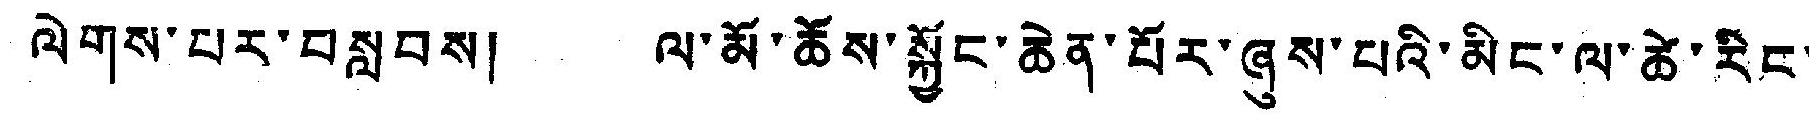ལེགས་པར་བསླབས། ལ་མོ་ཆོས་སྐྱང་ཆེན་པོར་ཞུས་པའི་མིང་ལ་ཚེ་རིང་
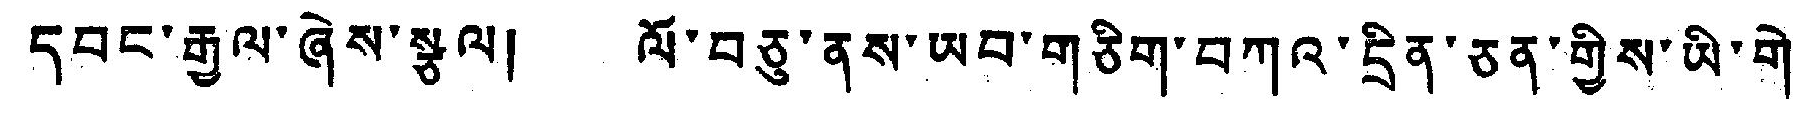དབང་རྒྱལ་ཞེས་སྩལ། ལོ་བཅུ་ནས་ཡབ་གཅིག་བཀའ་དྲིན་ཅན་གྱིས་ཡི་གེ་
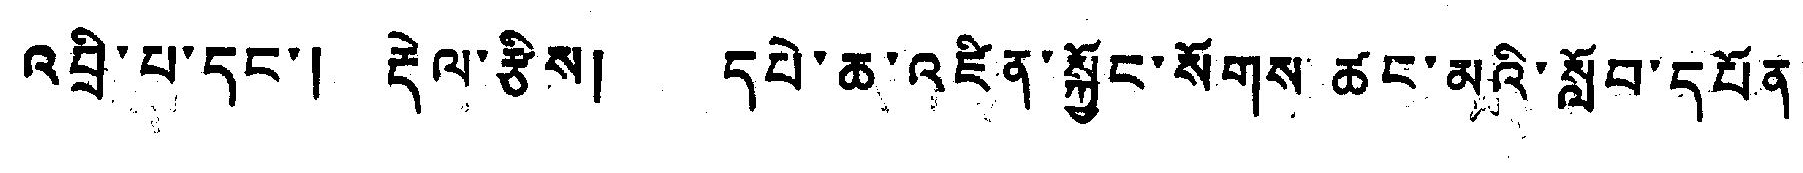འབྲ་པ་དང་། རྡེལ་རྩིས། དཔེ་ཆ་འཛིན་སྐྱོང་སོགས་ཚང་མའི་སློབ་དཔོན་་
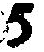5
